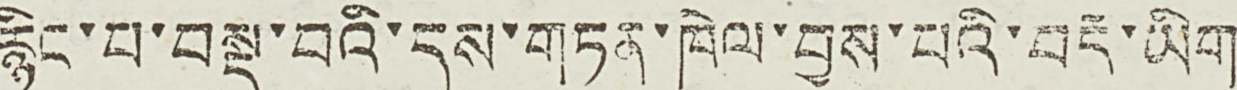རྙིང་བ་བསྡུ་བའི་དུས་གཏན་ཁེལ་བྱས་པའི་བརྡ་ཡིག
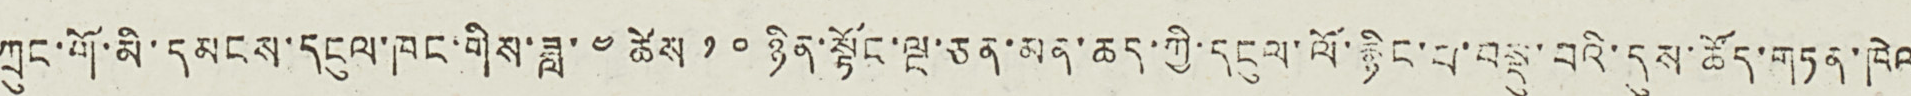ཀྲུང་གོ་མི་དམངས་དངུལ་ཁང་གིས་ཟླ་ ༤ ཚེས ༡༠ ཉིན་སྟོང་ལྔ་ཅན་མན་ཆད་ཀྱི་དངུལ་ལོ་རྙིང་པ་བསྡུ་བའི་དུས་ཚོད་གཏན་ཁེལ
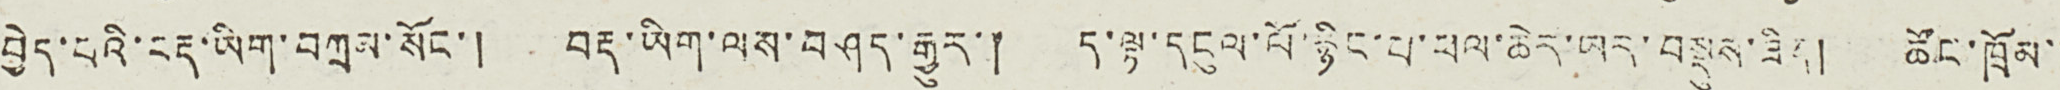བྱེད་པའི་བརྡ་ཡིག་བཀྲམ་སོང་། བརྡ་ཡིག་ལས་བཤད་རྒྱུར་། ད་ལྟ་དངུལ་པོ་རྙིང་པ་ཕལ་ཆེར་ཡར་བསྡུས་ཟིན། ཚོང་ཁྲོམ་་
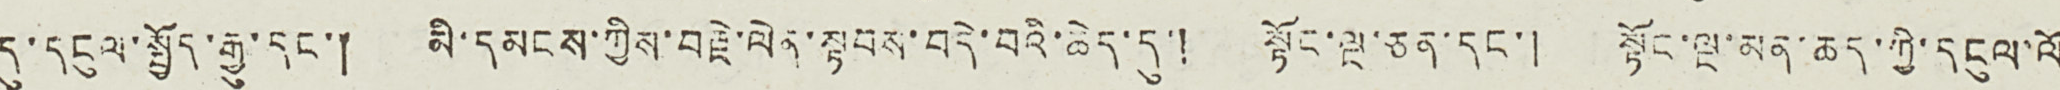དུ་དངུལ་སྤྱོད་རྒྱུ་དང་། མི་དམངས་ཀྱིས་བརྗེ་ལེན་སྟབས་བདེ་བའི་ཆེད་དུ་། སྟོང་ལྔ་ཅན་དང་། སྟོང་ལྔ་མན་ཆད་ཀྱི་དངུལ་ལོ
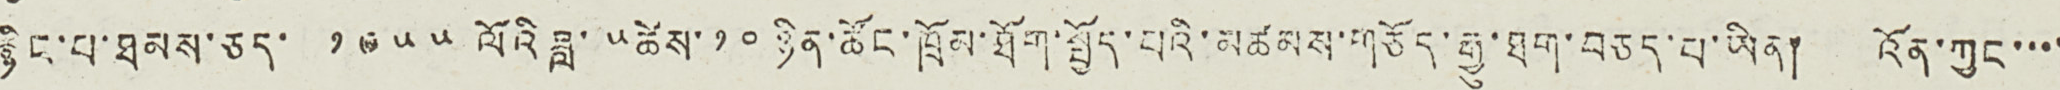རྙིང་པ་ཐམས་ཅད་ ༡༩༥༥ ལོའི ཟླ་ ༥ཚེས་ ༡༠ ཉིན་ཚོང་ཁྲོམ་ཐོག་སྤྱོད་པའི་མཚམས་གཅོད་རྒྱུ་ཐག་བཅད་པ་ཡིན། འོན་ཀྱང་་་་
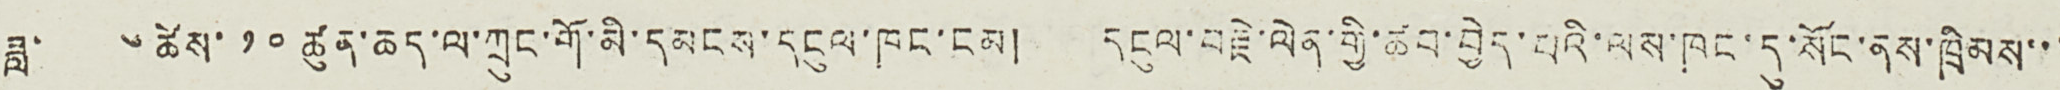ཟླ་ ༦ ཚེས་ ༡༠ ཚུན་ཆད་ལ་ཀྲུང་གོ་མི་དམངས་དངུལ་ཁང་ངམ། དངུལ་བརྗེ་ལེན་གྱི་ཚབ་བྱེད་པའི་ལས་ཁང་དུ་སོང་ནས་ཁྲིམས་་་
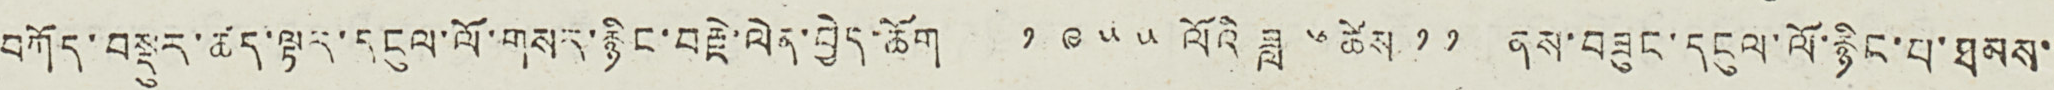བཀོད་བསྡུར་ཚད་ལྟར་དངུལ་ལོ་གསར་རྙིང་བརྗེ་ལེན་བྱེད་ཆོག ༡༩༥༥ ལོའི ཟླ ༦ ཚེས ༡༡ ནས་བཟུང་དངུལ་ལོ་རྙིང་པ་ཐམས་་
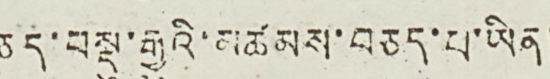ཅད་བསྡུ་རྒྱུའི་མཚམས་བཅད་པ་ཡིན།
